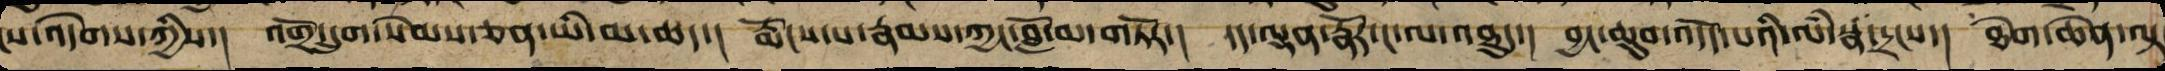ངས་འདེགས་ཀྱིས་། འགྲོ་དྲུག་སེམས་ཅན་ཡི་མ་ཆད་། རྨོངས་པ་རྣམས་ཀྱང་བློ་མ་གཏོར་། དད་ལྡན་རྣོར་ང་ལ་འཐུད་། བྱང་ཆུབ་འདོད་པའི་ལཾ་སྣ་དྲངས་། ཐེག་ཆེན་ལྟ
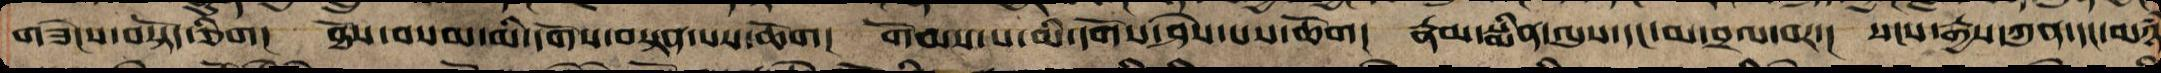གཟེངས་བསྟོད་ཅིག། ཐོས་བསམ་མི་དགོས་བསྟན་པས་ཆོག། གོམས་པ་མི་དགོས་ཤེས་པས་ཆོག། རྣམ་སྨིན་ལུས་དང་མ་བྲལ་བར་། སངས་རྒྱས་ཀུན་དང་མཉཾ་
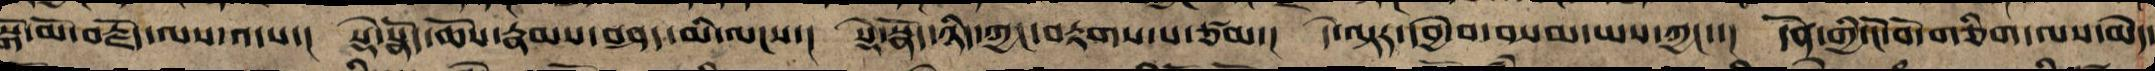སྒོ་མོ་བརྗོད་ལས་འདས་། སྡེ་སྣོད་ཆོས་རྣམས་བཤད་མི་ལངས་། སྡེ་སྣོད་ཉིད་ཀྱང་བཏགས་པ་ཙམ་། དེ་ལྟར་དབྱེ་བ་བསམ་ཡས་ཀྱང་་། དོན་གྱི་ངོ་བོ་གཅིག་ལས་མེད་
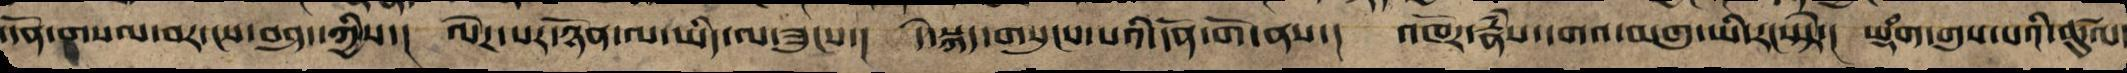་དོན་གསལ་བར་ངས་བཤད་ཀྱིས་། ལེགས་པར་ཉོན་ལ་ཡིད་ལ་ཟུངས་། དེ་སྐད་གསུངས་པའི་དོན་གོ་ནས་། འཁོར་རྣཾས་དགའ་མགུ་ཡི་རང་སྟེ་། ཡྡཾག་གུས་པའི་ཚུལ་
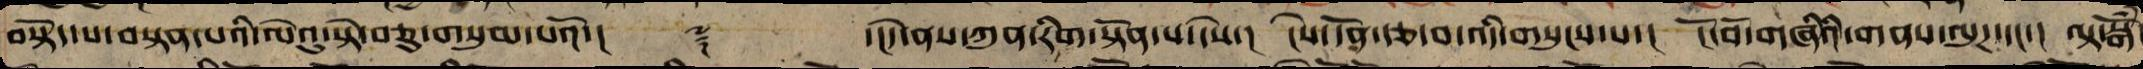བསྟོད་པ་བསྟན་པའི་ལེའུ་སྟེ་བཅུ་གསུམ་པའོ་།། ༈ ་།།དེ་ནས་ཀུན་རིག་སྟོན་པ་དེས་། ངེས་དོན་རྩ་བ་འདི་གསུངས་པ་། ངོ་བོ་གཞིའི་གནས་ལུཌ་དང་་། ལྟ་སྒོཾ་
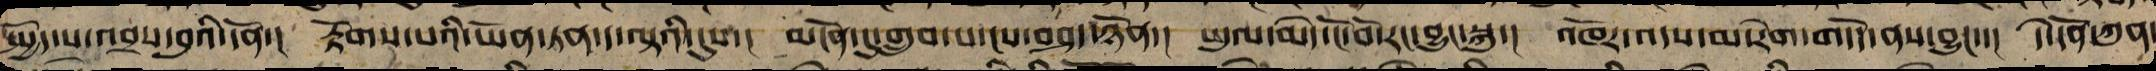སྤྱོད་པ་འབྲས་བུའི་དོན་། རྟོགས་པའི་ཡོན་ཏན་ད་ལྟའི་དུས་། མངོན་དུ་གྲུབ་པ་ངས་བཤད་ཉོན་། ཡུལ་མེད་ངོ་བོ་རང་བྱུང་སྐུ་། འཁོར་འདས་མ་རེག་གདོད་ནས་བྱུང་་། དེ་དོན་ཀུན
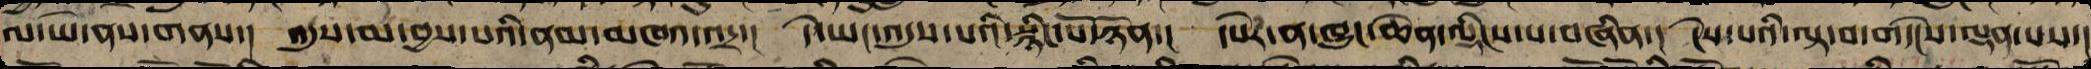ལ་ཡེ་ནས་གནས་། འདུས་མ་བྱས་པས་ནམ་མཁའ་འདྲ་། དེ་ཡང་འདུས་པའི་སྙིང་པོ་ཉོན་། དཔེར་ན་ཁྱུང་ཆེན་ལྡིང་པ་བཞིན་། ངེས་པའི་ལྟ་བ་གདེང་ལྡན་པས་།
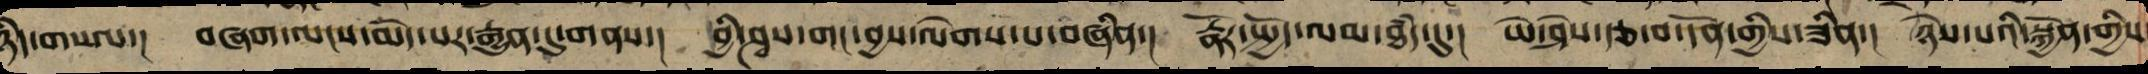ཉིད་གསལ་། བཞག་ལངས་མེད་པར་རྒྱུན་དུ་གནས་། བྱི་ཤྭས་གང་བྱས་ལེགས་པ་བཞིན་། རྣལ་འབྱོར་སྤྱོད་ལམ་ཐཾད་དུ་། ཡེ་ཤེས་རྩ་བ་དོན་གྱིས་ཟིན་། ཉེས་པའི་སྐྱོན་གྱིས
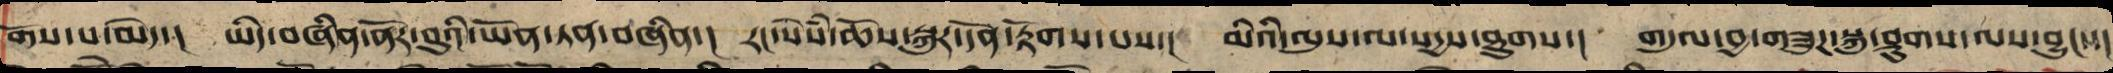གོས་པ་མེད་། ཡིད་བཞིན་ནོར་བུའི་ཡོན་ཏན་བཞིན་། རང་སེཾས་ཆོས་སྐུར་དོན་རྟོགས་པས་། མིའི་ལུས་ལ་སདྱས་ཐུགས་། གདུལ་བྱ་གཟུཌ་སྐུ་ཤུགས་ལས་བྱུང་་།
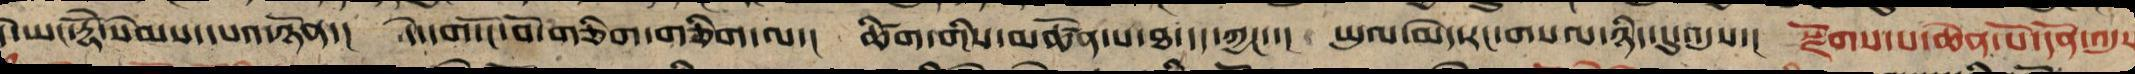དེ་ཡང་རྡོེ་སེམས་དཔའ་ཉོན་། དེ་དག་ངོ་བོ་གཅིག་གཅིག་ལ་། ཚིག་གི་མཚོན་པ་ཐ་དད་ཀྱང་་། ཡུལ་མེད་རང་གསལ་ཉིད་དུ་འདུས་། སྫོགས་པ་ཆེན་པོ་དོན་འདུས
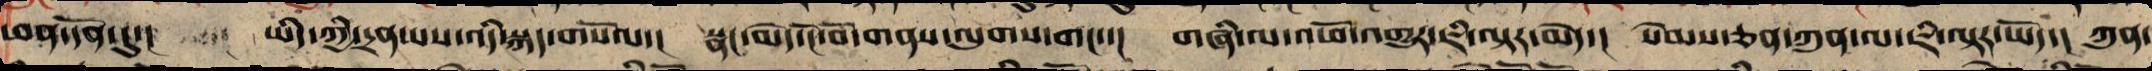ཕན་དོན་དུ་། ཡིད་ཀྱིས་དྲན་པས་འདི་སྐད་གསོལ་། སྣང་མེད་ངོ་བོའི་གནས་ལུགས་གང་་། གཞི་ལ་འཕོ་འགྱུར་ཇི་ལྟར་མེད་། སེམས་ཅན་ཀུན་ལ་ཇི་ལྟར་ཡོད་། ཀུན་
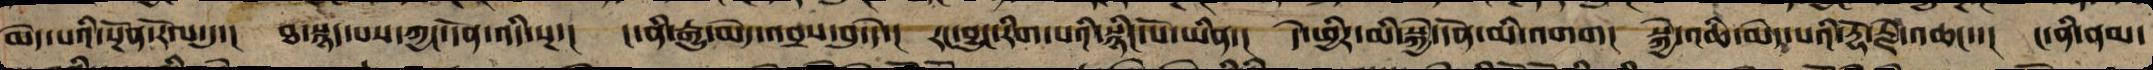མེད་པའི་སྔོན་རོལ་དུ་། ཐ་སྙད་པས་ཀྱང་དོན་འདི་སྔ་། ང་ནི་རྒྱུ་མེད་འབྲས་བུ་དེ་། རང་བྱུང་རིག་པའི་སྙིང་པོ་ཡིན་། དེ་ཕྱིར་མི་སྐྱེ་དོན་མི་འགག། སྐྱེ་འཆི་མེད་པའི་རྡོ་རྗེ་འཆང་་། ང་ནི་ནམ་
